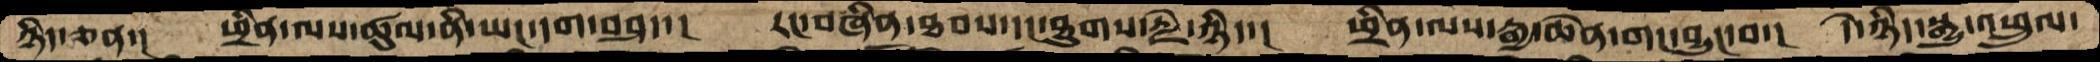ཉིད་ཅན་།  ཕྲིན་ལས་ཚུལ་ནི་ཡང་དག་བཤད་།  རང་བཞིན་ཐབས་དང་ཐུགས་རྗེ་ཉིད་།  ཕྲིན་ལས་རྒྱ་ཆེན་གང་བྱུང་བ་།  དེ་ཉིད་སྒྱུ་འཕྲུལ་
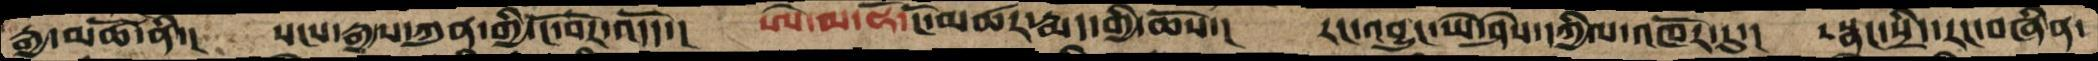རྒྱ་མཚོ་ནི་།  སངས་རྒྱས་ཀུན་གྱི་ངོ་བོར་འདོད་།  ཨེ་མ་ཧོ་ངོ་མཚར་རྨད་གྱི་ཆོས་།  རང་འབྱུང་ཡེ་ཤེས་དཀྱིལ་འཁོར་དུ་།  སྣང་སྲིད་རང་བཞིན་
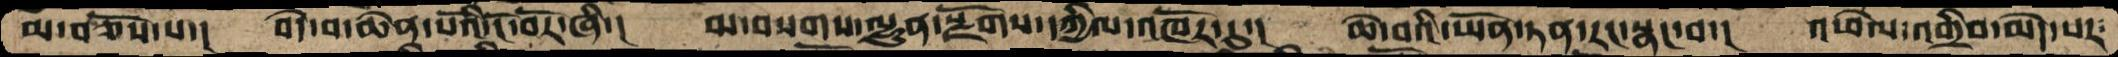མ་བཅོས་པ་།  བདེ་བ་ཆེན་པོའི་ངོ་བོར་ཞི་།  མ་བསགས་ལྷུན་སྫོགས་དཀྱིལ་འཁོར་དུ་།  ཆེ་བའི་ཡོན་ཏན་རང་སྣང་བ་།  འཕེལ་འགྲིབ་མེད་པར་
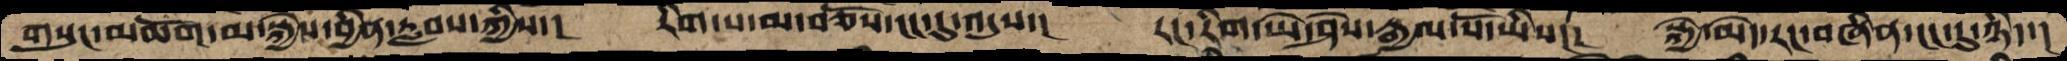གསུང་མཆོག་མ་སྐྱེས་བྱིན་རླབས་ཀྱིས་།  རིག་པ་མ་བཅོས་ངང་དུ་འདུས་།  རང་རིག་ཡེ་ཤེས་རྒྱལ་པོ་ཡིས་།  སྐྱེ་མེད་རང་བཞིན་ངང་དུ་ཉིད་།
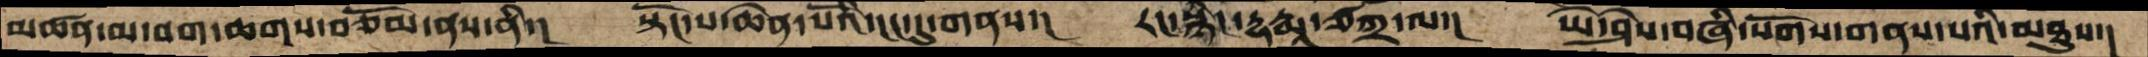མཚན་མ་བག་ཆགས་བཅོམ་ནས་ནི་།  སྟོང་པ་ཆེན་པོའི་ངང་དུ་གནས་།  རང་ཉིད་དྷརྨཱ་ཙཀྲ་ལ་།  ཡེ་ཤེས་བཞི་སོགས་གནས་པའི་མཐུས་།
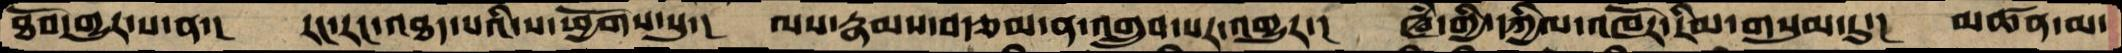ཐོབ་གྱུར་པ་ན་།  རང་རང་འཐད་པའི་ས་ཕྱོགས་སུ་།  ལས་རྣམས་བརྩམ་ན་འགྲུབ་པར་འགྱུར་།  ཝཾ་གྱི་དཀྱིལ་འཁོར་རིམ་གསུམ་དུ་།  མཚན་མ་
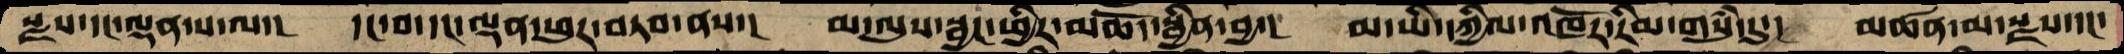སྫས་དང་ལྡན་པ་ལ་།  དང་བ་དང་ལྡན་ཕུར་བཏབ་ནས་།  མ་ལུས་སྦྱང་ཕྱིར་མཆོད་སྦྱིན་བྱ་།  མ་ཡི་དཀྱིལ་འཁོར་རིམ་གསུཾ་དུ་།  མཚན་མ་སྫས་དང་
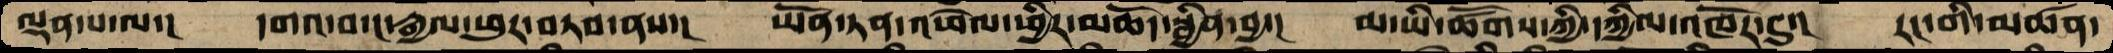ལྡན་པ་ལ་།  དགའ་བ་ང་རྒྱལ་ཕུར་བཏབ་ནས་།  ཡོན་ཏན་འཕེལ་ཕྱིར་མཆོད་སྦྱིན་བྱ་།  མ་ཡི་ཚོགས་ཀྱི་དཀྱིལ་འཁོར་དུ་།  རང་གི་མཚན་
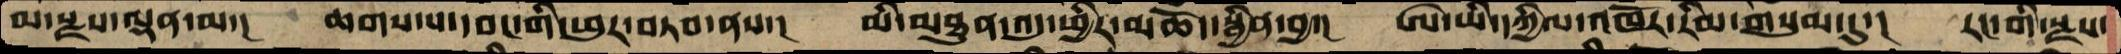མ་སྫས་ལྡན་མ་།  ཆགས་པ་དབང་གི་ཕུར་བཏབ་ནས་།  མི་མཐུན་འདུ་ཕྱིར་མཆོད་སྦྱིན་བྱ་།  ཨེ་ཡི་དཀྱིལ་འཁོར་རིམ་གསུམ་དུ་།  རང་གི་སྫས་
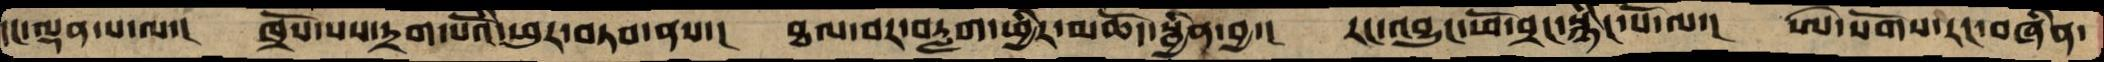དང་ལྡན་པ་ལ་།  ཁྲོས་པས་དྲག་པོའི་ཕུར་བཏབ་ནས་།  ཐལ་བར་བརླག་ཕྱིར་མཆོད་སྦྱིན་བྱ་།  རང་འབྱུང་ཕོ་བྲང་སྙིང་པོ་ལ་།  ཨེ་སོགས་རང་བཞིན་
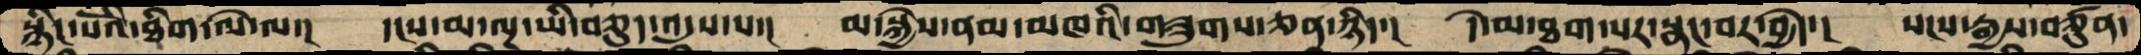སྙིང་པོའི་ཐིག་ལེ་ལ་།  དངས་མ་ལྔ་ཡི་བཅུད་འདུས་པ་།  མ་སྐྱེས་ནམ་མཁའི་གཟུགས་ཅན་ཉིད་།  དེ་མ་ཐག་པར་སྣང་བར་བྱེད་།  སངས་རྒྱས་བཙུན་
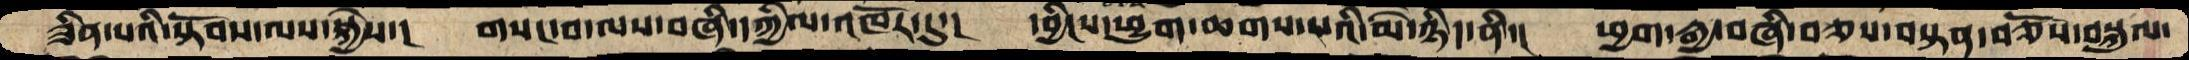ཟིན་པའི་སྟོབས་ལས་སྐྱེས་།  གསང་བ་ལས་བཞི་དཀྱིལ་འཁོར་དུ་།  དབྱིངས་ཕྱུག་ཆགས་པའི་མེ་ཉིད་ནི་།  ཕྱག་རྒྱ་བཞི་བཅས་བསྟན་བཅོས་བསྐུལ་
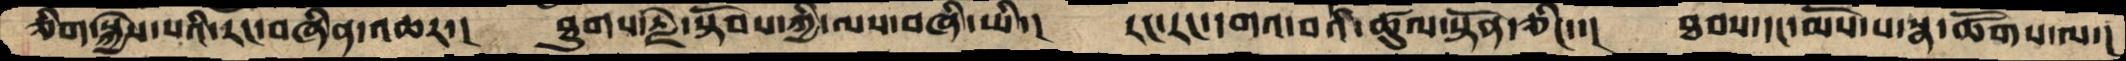ཅིག་སྐྱེས་པའི་རང་བཞིན་འཆར་།   ཐུགས་རྗེ་སྟོབས་ཀྱི་ལས་བཞི་ཡི་།  རང་རང་དགའ་བའི་ཚུལ་སྟོན་ཅིང་་།  ཐབས་དང་མོས་པ་སྣ་ཚོགས་ལ་།
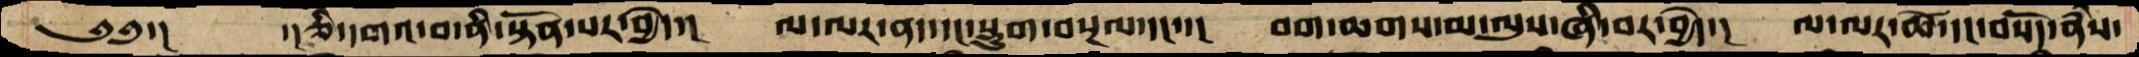༄༅་།       ་།ཅི་དགའ་བ་ནི་སྟོན་པར་བྱེད་།  ལ་ལར་ནད་དང་སྡུག་བསྔལ་དང་་།  བག་ཆགས་མ་ལུས་ཞི་བར་བྱེད་།  ལ་ལར་ཚེ་དང་བསོད་ནཾས་
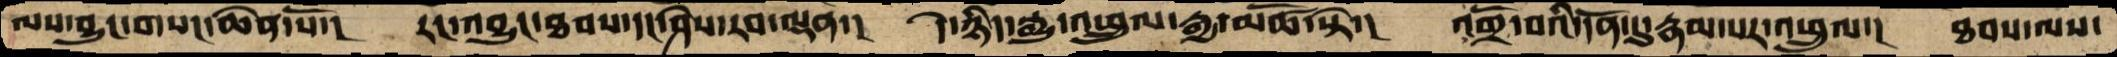ལས་བྱུང་གསང་ཆེན་པོ་།  རང་འབྱུང་ཐབས་དང་ཤེས་རབ་ལྡན་།  དེ་ཉིད་སྒྱུ་འཕྲུལ་རྒྱ་མཚོ་སྟེ་།   འགྲོ་བའི་དོན་དུ་རྣམ་པར་འཕྲུལ་།  ཐབས་ལས་
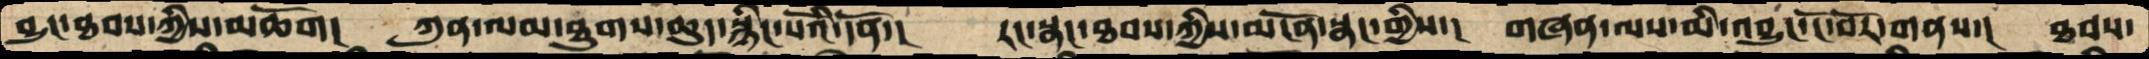བྱུང་ཐབས་ཀྱིས་མཆོག།  ཀུན་ལམ་ཐུགས་ཆུད་སྙིང་པོའི་དོན་།  རང་སྣང་ཐབས་ཀྱིས་མངོན་སྣང་གྱིས་།  གཞན་ལས་མི་འབྱུང་ངོ་བོར་གནས་།  ཐབས་
